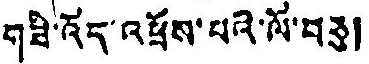གཟི་འོད་འཕྲོས་པའི་ལོ་བཅུ།
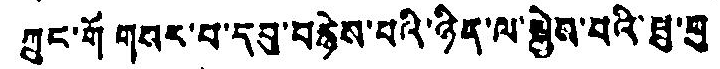ཀྲུང་གོ གསར་པ་དབུ་བརྙེས་པའི་ཉིན་ལ་སྤེས་པའི་བྲུ་གུ
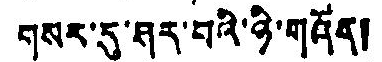གསར་དུ་ཤར་བའི་ཉི་གཞོན།
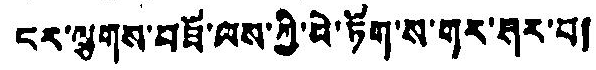ངར་ལྱགས་བཟོ་ལས་ཀྱི་པེ་ཏོག་ས་གར་ཤར་བ།
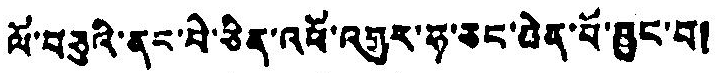ལོ་བཅུའི་ནང་པེ་ཅིན་འཕོ་འགྱུར་ཧ་ཅང་ཆེན་པོ་བྱུང་བ།
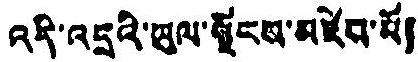འདི་འདྲའི་ཡུལ་སྗོངས་མཛེབ་མོ།
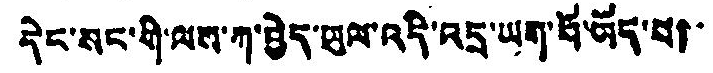དེང་སང་གི་ལས་ཀ་བྱེད་ཡུལ་འདི་འདྲ་ཡག་པོ་ཡོད་པ།
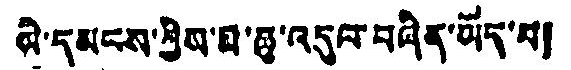མི་དམངས་ཀྱིས་པ་ཆུ་འདུལ་བཞིན་ཡོད་པ།
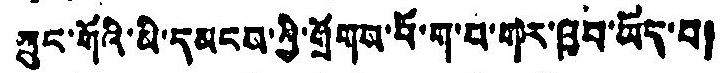ཀྲུང་གོའི་མི་དམངས་ཀྱི་གྲོགས་པོ་ག་པ་གར་ཁྱབ་ཡོད་པ།
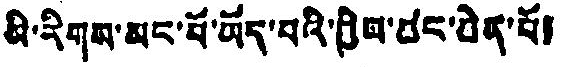མི་རིགས་མང་པོ་ཡོད་པའི་ཁྱིམ་བང་བེན་པོ།
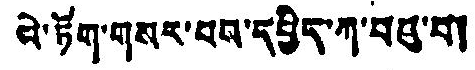པེ་ཏོག་གསར་བབ་དཔྱིད་ཀ་བཞུ་བ།
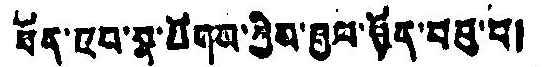ཐོན་ཐབ་སྣ་ཚོགས་ཀྱིས་ཁྱལ་ཐོད་བཞུ་བ།
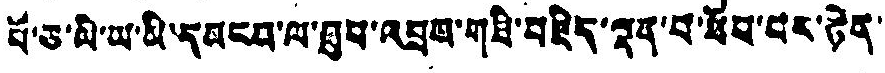པོ་ཅ་ལི་ཡ་མི་དམངས་ལ་ཐུབ་འབྲུབ་གཟི་བརྗིད་ལྡན་པ་ཐོབ་པར་རྟེན་
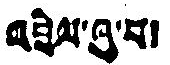འབྲེལ་ཞུ་བ།
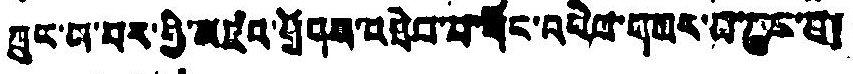ཀྲུང་ཡ་བར་གྱི་མཛའ་སྲོགས་བཐེབ་པ་གོང་འབེལ་གསར་པ་ཀྱུང་བ།
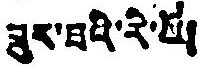ཟུར་བའི་རི་བོ།
